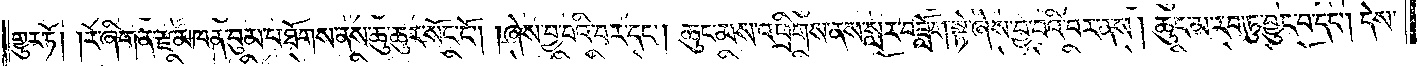གྱུར་ཏོ། །རེ་ཞིག་ན་རྫ་མཁན་བུམ་པ་ཐོགས་ནས་ཆུ་ཆུར་སོང་ངོ༌། །ཞེས་བྱ་བའི་བར་དང༌། ཆུང་མས་འཕྲིགས་ནས་སླར་བཟློག་སྟེ་ཞེས་བྱ་བའི་བར་ནས། ཆུང་མ་རབ་ཏུ་བྱུང་བ་དང༌། དེས་
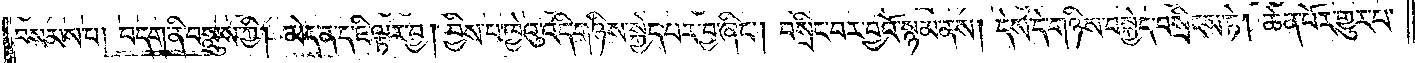བསམས་པ། བདག་ནི་བསླུས་ཀྱི། མེད་ན་ད་ཇི་ལྟར་བྱ། བྱིས་པ་ཁྱེའུ་འདི་གཉིས་སྐྱེད་པར་བྱ་ཞིང༌། བསྲིང་བར་བྱའོ་སྙམ་ནས། དེས་དེ་གཉིས་བསྐྱེད་བསྲིངས་ཏེ། ཆེན་པོར་གྱུར་པ་
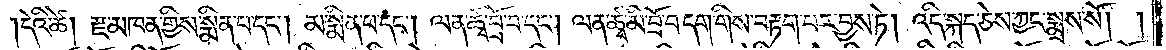དེའི་ཚེ། རྫ་མཁན་གྱིས་སྨིན་པ་དང༌། མ་སྨིན་པ་དང༌། ལན་ཚྭ་བྲོ་བ་དང༌། ལན་ཚྭ་མི་བྲོ་བ་དག་གིས་བརྟག་པར་བྱས་ཏེ། འདི་སྐད་ཅེས་ཀྱང་སྨྲས་སོ། །
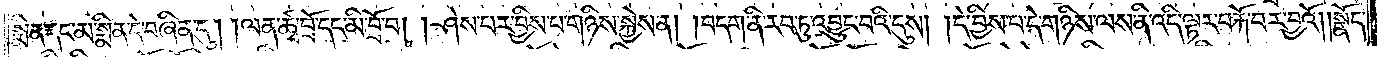སྨིན་དང་མ་སྨིན་དེ་བཞིན་དུ། །ལན་ཚྭ་བྲོ་དང་མི་བྲོ་བ། །ཤེས་པར་བྱིས་པ་གཉིས་སྐྱེས་ན། །བདག་ནི་རབ་ཏུ་འབྱུང་བའི་དུས། །དེ་བྱིས་པ་དེ་གཉིས་ལས་ནི་འདི་ལྟར་བརྐོ་བར་བྱའོ། །སྣོད་
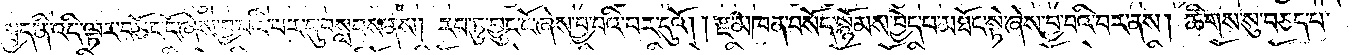སྤྱད་ནི་འདི་ལྟར་བཅོད་དོ་ཞེས་བྱ་བའི་བར་དུ་བསླབས་ནས། རབ་ཏུ་བྱུང་ངོ་ཞེས་བྱ་བའི་བར་དུའོ། །རྫ་མཁན་བསོད་སྙོམས་བྱེད་པ་མཐོང་སྟེ་ཞེས་བྱ་བའི་བར་ནས། ཚིགས་སུ་བཅད་པ་
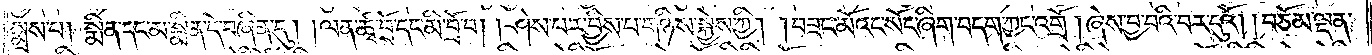སྨྲས་པ། སྨིན་དང་མ་སྨིན་དེ་བཞིན་དུ། །ལན་ཚྭ་བྲོ་དང་མི་བྲོ་བ། །ཤེས་པར་བྱིས་པ་གཉིས་སྐྱེས་ཀྱི། །བཟང་མོའང་སོང་ཞིག་བདག་ཀྱང་འགྲོ། །ཞེས་བྱ་བའི་བར་དུའོ། །བཅོམ་ལྡན་
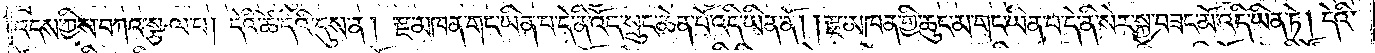འདས་ཀྱིས་བཀའ་སྩལ་པ། དེའི་ཚེ་དེའི་དུས་ན། རྫ་མཁན་གང་ཡིན་པ་དེ་ནི་འོད་སྲུང་ཆེན་པོ་འདི་ཡིན་ནོ། །རྫ་མཁན་གྱི་ཆུང་མ་གང་ཡིན་པ་དེ་ནི་སེར་སྐྱ་བཟང་མོ་འདི་ཡིན་ཏེ། དེའི་
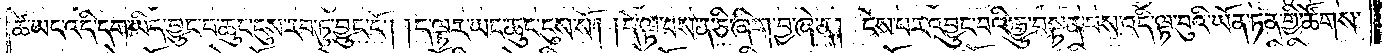ཚེ་ཡང་འདི་དག་ཡིད་བྱུང་བ་ཆུང་ངུས་རབ་ཏུ་བྱུང་ངོ༌། །ད་ལྟར་ཡང་ཆུང་ངུས་སོ། །དེ་ལྟ་བས་ན་ཅི་ཞིག་བྱ་ཞེ་ན། ངེས་པར་འབྱུང་བའི་རྒྱུ་བསྟན་པས་འདི་ལྟ་བུའི་ཡོན་ཏན་གྱི་ཚོགས་
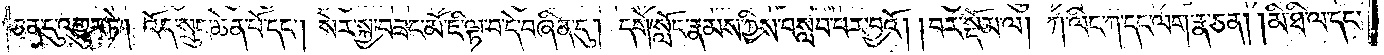ཅན་དུ་འགྱུར་ཏེ། འོད་སྲུང་ཆེན་པོ་དང༌། སེར་སྐྱ་བཟང་མོ་ཇི་ལྟ་བ་དེ་བཞིན་དུ། དགེ་སློང་རྣམས་ཀྱིས་བསླབ་པར་བྱའོ། །བར་སྡོམ་ལ། ཀ་ལིང་ཀ་དང་ལག་རྣ་ཅན། །མི་ཐི་ལ་དང་
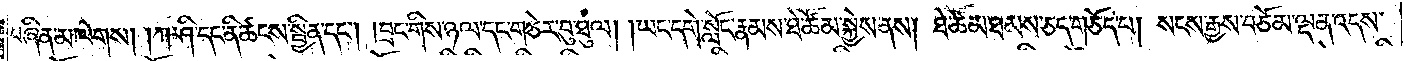བཞིན་མ་ལེགས། །ཀ་ཤི་དང་ནི་ཚངས་སྦྱིན་དང༌། །བྲང་གིས་ཉལ་དང་གཅེར་བུ་ཐུལ། །ཡང་དགེ་སློང་རྣམས་ཐེ་ཚོམ་སྐྱེས་ནས། ཐེ་ཚོམ་ཐམས་ཅད་གཅོད་པ། སངས་རྒྱས་བཅོམ་ལྡན་འདས་
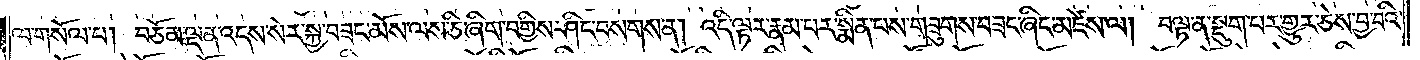ལ་གསོལ་པ། བཅོམ་ལྡན་འདས་སེར་སྐྱ་བཟང་མོས་ལས་ཅི་ཞིག་བགྱིས་ཤིང་བསགས་ན། འདི་ལྟར་རྣམ་པར་སྨིན་པས་གཟུགས་བཟང་ཞིང་མཛེས་ལ། བལྟ་ན་སྡུག་པར་གྱུར་ཅེས་བྱ་བའི་
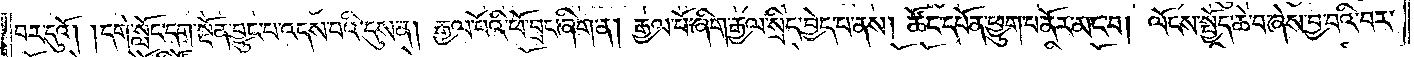བར་དུའོ། །དགེ་སློང་དག་སྔོན་བྱུང་བ་འདས་པའི་དུས་ན། རྒྱལ་པོའི་ཕོ་བྲང་ཞིག་ན། རྒྱལ་པོ་ཞིག་རྒྱལ་སྲིད་བྱེད་པ་ནས། ཚོང་དཔོན་ཕྱུག་པ་ནོར་མང་བ། ལོངས་སྤྱོད་ཚེ་བ་ཞེས་བྱ་བའི་བར་
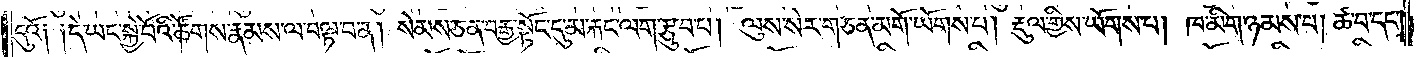དུའོ༑ ༑དེ་ཡང་སྐྱེ་བོའི་ཚོགས་རྣམས་ལ་བལྟ་བ་ན། སེམས་ཅན་བརྒྱ་སྟོང་དུ་མ་རྐང་ལག་རྩུབ་པ། ལུས་སེར་གཅན་མགོ་ཡོགས་པ། རྡུལ་གྱིས་ཡོགས་པ། ཁ་མིག་ཉམས་པ། ཚ་བ་དང་
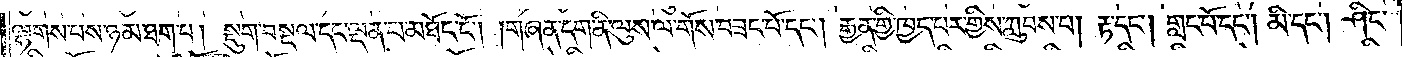ལྷགས་པས་ཉམ་ཐག་པ། སྡུག་བསྔལ་དང་ལྡན་པ་མཐོང་ངོ༌། །གཞན་དག་ནི་ལུས་ལ་གོས་བཟང་པོ་དང༌། རྒྱན་གྱི་ཁྱབ་པར་གྱིས་ཀླུབས་པ། རྟ་དང༌། གླང་པོ་དང༌། མི་དང༌། ཤིང་
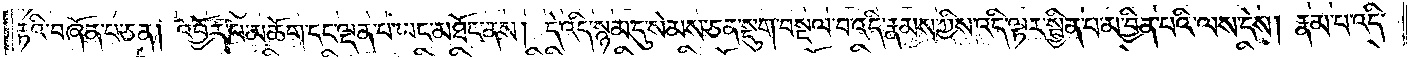རྟའི་བཞོན་པ་ཅན། འབྱོར་པ་མཆོག་དང་ལྡན་པ་ཡང་མཐོང་ནས། དེ་འདི་སྙམ་དུ་སེམས་ཅན་སྡུག་བསྔལ་བ་འདི་རྣམས་ཀྱིས་འདི་ལྟར་སྦྱིན་པ་མ་བྱིན་པའི་ལས་དེས། རྣམ་པ་འདི་
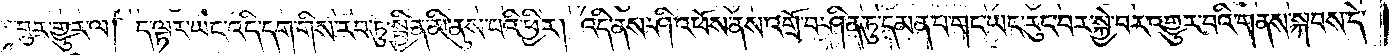ལྟ་བུར་གྱུར་ལ། དེ་ལྟར་ཡང་འདི་དག་གིས་རབ་ཏུ་སྦྱིན་མི་ནུས་པའི་ཕྱིར། འདི་ནས་ཤི་ཕོས་ནས་འགྲོ་བ་ཤིན་ཏུ་དམན་པ་གང་ཡང་རུང་བར་སྐྱེ་བར་འགྱུར་བའི་གནས་སྐབས་དེ་
